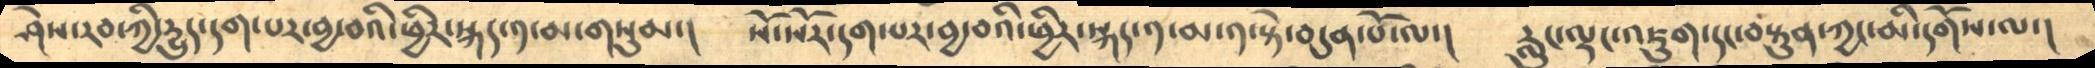ཤེས་རབ་ཀྱི་དྱུད་དག་པར་བྱ་བའི་ཕྱིར་སྐད་༡་མ་གསུམ་།      སོ་སོར་དག་པར་བྱ་བའི་ཕྱིར་སྐད་༡་མ་༡་སྟེ་བདུན་པོ་ལ་།་     རླུང་ལྷང་འཇུག་དང་བསྟུན་གྱང་མི་དགོས་ལ་།
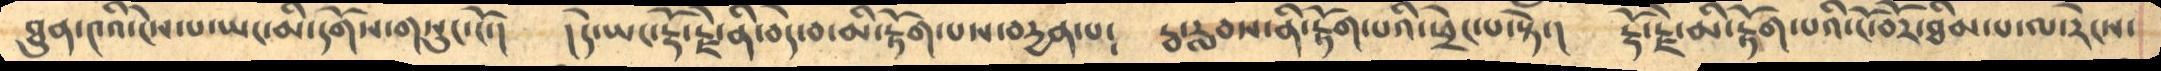ཐུན་༤འི་ངེས་པ་ཡང་མི་དགོས་གསུང་ངོ་།      །དེ་ཡང་རྡོ་རྗེ་ནི་བདེ་བ་མི་རྟོག་པས་བདྱན་པ༴    རྦ་རླབས་ནི་རྟོག་པའི་ཕྲེང་པ་སྟེ་།     རྡོ་རྗེ་མི་རྟོག་པའི་ངོ་བོར་ཐིམ་པ་ལ་རེངས་
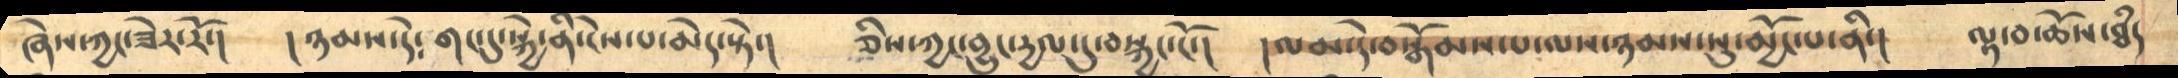ཞེས་ཀྱང་ཟེར་རོ་།      །ཉམས་དེ༴  གང་དུ་སྐྱེ་ནི་ངེས་པ་མེད་སྟེ་།       ཅིས་ཀྱང་བྱུང་དྱལ་དུ་བསྐྱང་ངོ་།      །ལམ་དེ་བསྒོམས་པ་ལས་ཉམས་སུ་མྱོང་པ་ནི་།    ལྟ་བ་ཆོས་ཐཾད
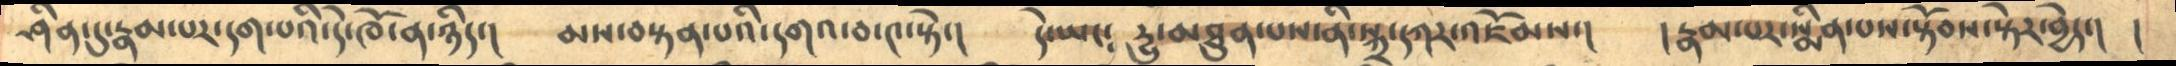ཤིན་དུ་རྣམ་པར་དག་པའི་དེ་ཁོ་ན་ཉིད་།        མས་བསྟན་པའི་དགའ་བ་༤་སྟེ་།      དེ་ཡང༴  དྱུ་མཐུན་པས་ནི་སྐྲ་དཀར་འཇོམས་།     །རྣམ་པར་སྨིན་པས་སྟོབས་སྟེར་བྱེད་།    །
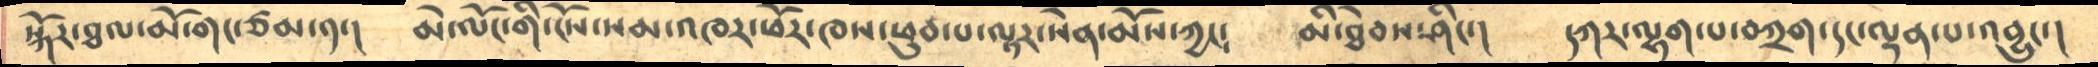སྐོར་ཐལ་མོ་གང་ཙམ་༡་།      མེ་ལོང་གི་ངོས་སམ་འཁར་ཕོར་ཁས་ཕུབ་པ་ལྟར་སེན་མོས་ཀྱང༴    མི་ཐེབས་ཤིང་།      དཀར་ལྷག་པ་བཀྲག་དང་ལྡན་པ་འབྱུང་།
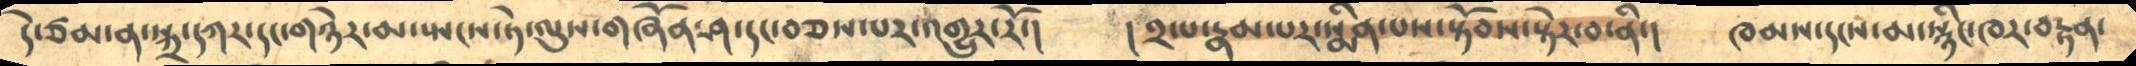དེ་ཙམ་ན་སྐྲ་དཀར་དང་གཉེར་མ་སྤངས་ཏེ་ལུས་གཞོན་ཤ་དང་བཅས་པར་འགྱུར་རོ་།       ། ༢་པ་རྣམ་པར་སྨིན་པས་སྟོབས་སྟེར་བ་ནི་།   ཁམས་དངས་མ་སྙིང་ཁར་བརྟན་
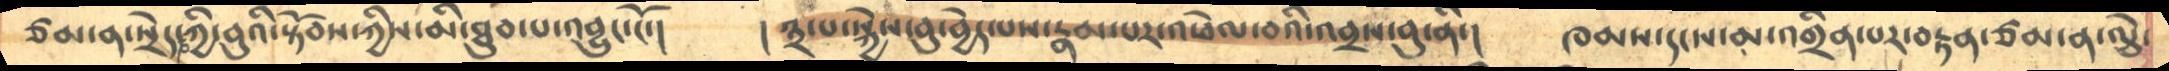ཙམ་ན་སྲེད་ཀྱི་བུའི་སྟོབས་ཀྱིས་མི་ཐུབ་པ་འབྱུང་ངོ་།     །༣་པ་སྐྱེས་བུ་བྱེད་པས་རྣམ་པར་འཕེལ་བའི་འབྲས་བུ་ནི་།      ཁམས་དངས་མ་འགྲིན་པར་བརྟན་ཙམ་ན་ལྕེ་
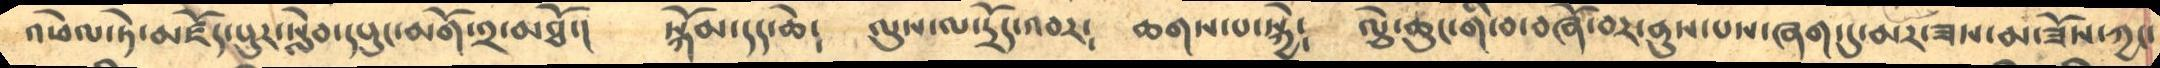འཕེལ་ཏེ་མཛོད་པུར་སླེབ་དཔུང་མགོ་༢་མཐོ་།       སྐོམ་དད་ཆེ༴    ལུས་ལ་དྲོད་འབར༴    ཆགས་པ་སྐྱེ༴   ལྕེ་ཆུང་གི་བ་བཞོ་བར་ནུས་པས་ཞག་དུ་མར་ཟས་མ་ཟོས་ཀྱང་
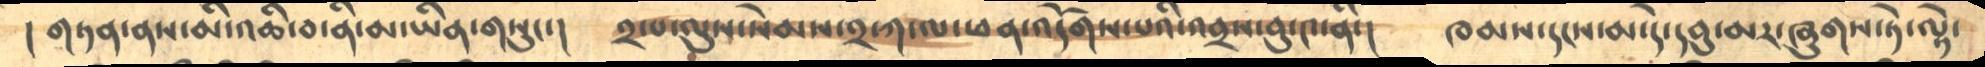།  གཏན་ནས་མི་འཆི་བ་ནི་མ་ཡིན་གསུང་།    ༢་པ་ལུས་སེམས་༢་ཀ་ལ་ཕན་འདོགས་པའི་འབྲས་བུ་༤་ནི་།   ཁམས་དངས་མ་དེ་དབུ་མར་ཞུགས་ཏེ་ལྟེ་
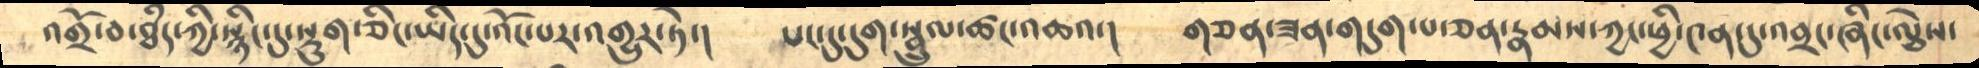འགྲོ་བ་ཐཾད་ཀྱི་སྙིང་དུ་སྟུག་ཅིང་ཡིད་དུ་འོང་པར་འགྱུར་ཏེ་།    པང་དུ་དུག་སྦྲུལ་ཚང་འཆའ་།   གཅན་ཟན་གདུག་པ་ཅན་རྣམས་ཀྱང་ཕྱི་༤ན་དུ་འབྲང་ཞིང་ལྕེས་
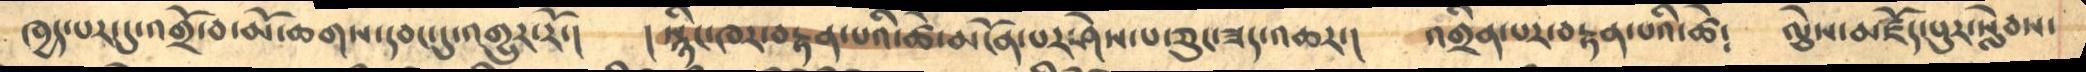ཁྱད་པར་དུ་འགྲོ་བ་མོ་ཆགས་དབང་དུ་འགྱུར་རོ་།  ། སྙིང་ཁར་བརྟན་པའི་ཚེ་མངོན་པར་ཤེས་པ་ཅུང་ཟད་འཆར་།    འགྲིན་པར་བརྟན་པའི་ཚེ༴     ལྕེས་མཛོད་པུར་སླེབས་
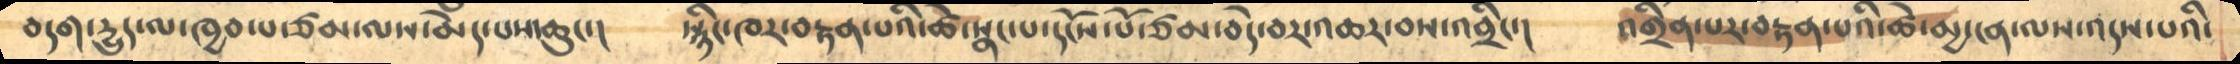བདག་དྱུད་ལ་ཁྱབ་པ་ཙམ་ལས་མེད་པས་ཆུང་།      སྙིང་ཁར་བརྟན་པའི་ཚེ་སྣང་པ་དངོས་པོ་ཙམ་བདེ་བར་འཆར་བས་འབྲིང་།    འགྲིན་པར་བརྟན་པའི་ཚེ་མྱ་ངན་ལས་འདས་པའི་
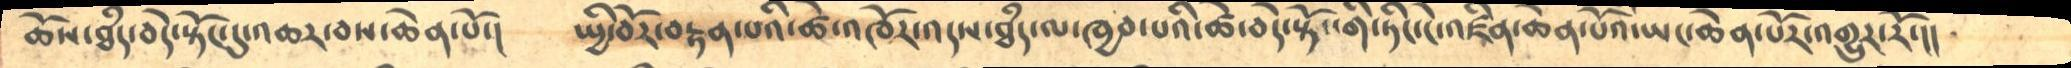ཆོས་ཐཾད་བདེ་སྟོང་དུ་འཆར་བས་ཆེན་པོ་།     སྤྱི་བོར་བརྟན་པའི་ཚེ་འཁོར་འདས་ཐཾད་ལ་ཁྱབ་པའི་ཚེ་བདེ་སྟོང་གི་ཏིང་ངེ་འཛིན་ཆེན་པོའི་ཡང་ཆེན་པོར་འགྱུར་རོ་།།
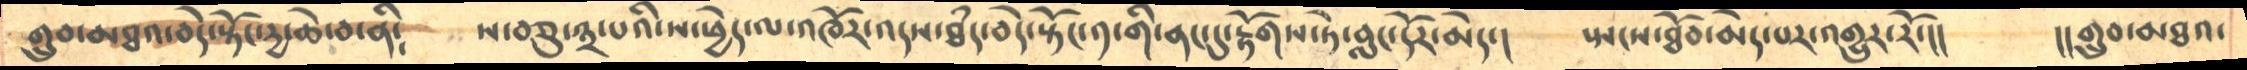གྲུབ་མཐའ་བདེ་སྟོང་དྱ་ཆེ་བ་ནི༴    ས་བཅུ་༣་པའི་ས་ཕྱེད་ལ་འཁོར་འདས་ཐཾད་བདེ་སྟོང་༡་གི་ནང་དུ་རྟོགས་ཏེ་བླང་དོར་མེད་།     སྤངས་ཐོབ་མེད་པར་འགྱུར་རོ་།།    །།གྲུབ་མཐའ་
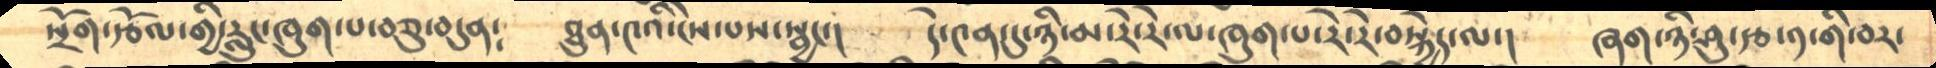སྲོག་རྩོལ་གྱི་རླུང་ཁུག་པ་བཅུ་བདུན༴      ཐུན་༤འི་ངེས་པས་སྦྱང་།     དེ་༤ན་དུ་ཉི་མ་རེ་རེ་ལ་ཁུག་པ་རེ་རེ་བསྐྱེད་ལ་།   ཞག་ཉི་ཤུ་རྩ་༡་གི་བར་
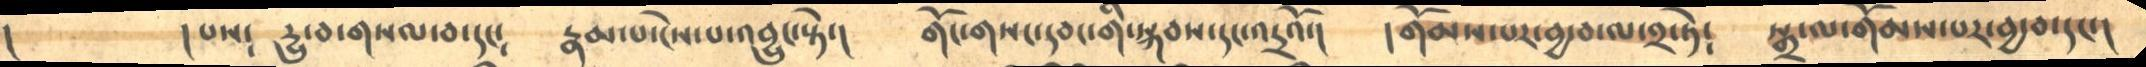།       ། པས༴    དྱུ་བ་གསལ་བ་དང༴     རྣམ་པ་ངེས་པ་འབྱུང་སྟེ་།     གོང་གསང་དབང་གི་སྐབས་དང་འདྲའོ་།    །གོམས་པར་བྱ་བ་ལ་༢་ཏེ༴   སྒྲ་ལ་གོམས་པར་བྱ་བ་དང་།
